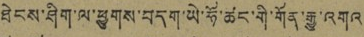ཐེངས་ཤིག་ལ་ཕྱུགས་བདག་ཡེ་ཧོ་ཚང་གི་གོན་རྒྱུ་འགའ
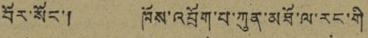པོར་སོང་། ཁོས་འབྲོག་པ་ཀུན་མཐོ་ལ་རང་གི
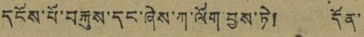དངོས་པོ་བརྐུས་དང་ཞེས་ཀ་ལོག་བྱས་ཏེ། དོན་
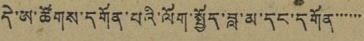དེ་ཨ་ཚོགས་དགོན་པའི་ལོག་སྤྱོད་བླ་མ་དང་དགོན་་་་་་
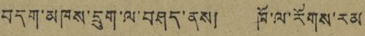བདག་མཁས་དྲུག་ལ་བཤད་ནས། ཁོ་ལ་རོགས་རམ
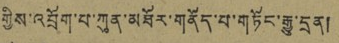གྱིས་འབྲོག་པ་ཀུན་མཐོར་གནོད་པ་གཏོང་རྒྱུ་དྲན།
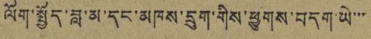ལོག་སྤྱོད་བླ་མ་དང་མཁས་དྲུག་གིས་ཕྱུགས་བདག་ཡེ་་་
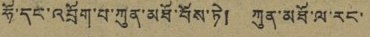ཧོ་དང་འབྲོག་པ་ཀུན་མཐོ་བོས་ཏེ། ཀུན་མཐོ་ལ་རང་
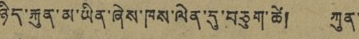ཉིད་རྐུན་མ་ཡིན་ཞེས་ཁས་ལེན་དུ་བཅུག་ཚེ། ཀུན་
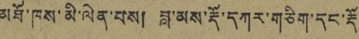མཐོ་ཁས་མི་ལེན་པས། བླ་མས་རྡོ་དཀར་གཅིག་དང་རྡོ་
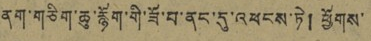ནག་གཅིག་ཆུ་རྙོག་གི་ཟོ་བ་ནང་དུ་འཕངས་ཏེ། ཕྱོགས་
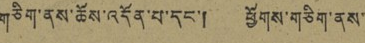གཅིག་ནས་ཆོས་འདོན་པ་དང་། ཕྱོགས་གཅིག་ནས་
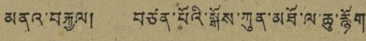མནའ་བརྐྱལ། བཙན་པོའི་སྒོས་ཀུན་མཐོ་ལ་ཆུ་རྙོག
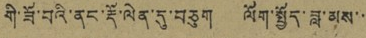གི་ཟོ་བའི་ནང་རྡོ་ལེན་དུ་བཅུག ལོག་སྤྱོད་ཟླ་མས་་
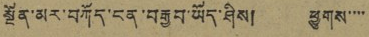སྔོན་མར་བཀོད་ངན་བརྒྱབ་ཡོད་ཤིས། ཕྱུགས་་་་
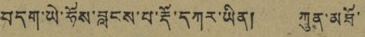བདག་ཡེ་ཧོས་བླངས་པ་རྡོ་དཀར་ཡིན། ཀུན་མཐོ་
